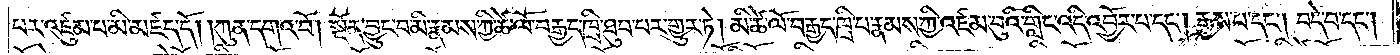པར་འཇུམ་པ་མི་མཛད་དོ། །ཀུན་དགའ་བོ། སྔོན་བྱུང་བ་མི་རྣམས་ཀྱི་ཚེ་ལོ་བརྒྱད་ཁྲི་ཐུབ་པར་གྱུར་ཏེ། མི་ཚེ་ལོ་བརྒྱད་ཁྲི་པ་རྣམས་ཀྱི་འཛམ་བུའི་གླིང་འདི་འབྱོར་པ་དང༌། རྒྱས་པ་དང༌། བདེ་བ་དང༌།
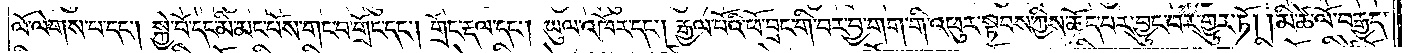ལོ་ལེགས་པ་དང༌། སྐྱེ་བོ་དང་མི་མང་པོས་གང་བ་གྲོང་དང༌། གྲོང་རྡལ་དང༌། ཡུལ་འཁོར་དང༌། རྒྱལ་པོའི་ཕོ་བྲང་གི་བར་བྱ་གག་གི་འཕུར་སྟབས་ཀྱིས་ཆོད་པར་བྱུང་བར་གྱུར་ཏོ། །མི་ཚེ་ལོ་བརྒྱད་
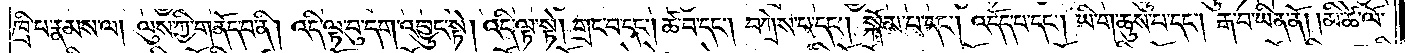ཁྲི་པ་རྣམས་ལ། ལུས་ཀྱི་གནོད་པ་ནི། འདི་ལྟ་བུ་དག་འབྱུང་སྟེ། འདི་ལྟ་སྟེ། གྲང་བ་དང༌། ཚ་བ་དང༌། བཀྲེས་པ་དང༌། སྐོམ་པ་དང༌། འདོད་པ་དང༌། ཡི་ག་ཆུས་པ་དང༌། རྒ་བ་ཡིན་ནོ། །མི་ཚེ་ལོ་
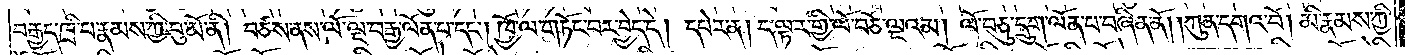བརྒྱད་ཁྲི་པ་རྣམས་ཀྱི་བུ་མོ་ནི། བཙས་ནས་ལོ་ལྔ་བརྒྱ་ལོན་པ་དང༌། ཁྱོ་ལ་གཏོང་བར་བྱེད་དེ། དཔེར་ན། ད་ལྟར་གྱི་ལོ་བཅོ་ལྔའམ། ལོ་བཅུ་དྲུག་ལོན་པ་བཞིན་ནོ། །ཀུན་དགའ་བོ། །མི་རྣམས་ཀྱི་
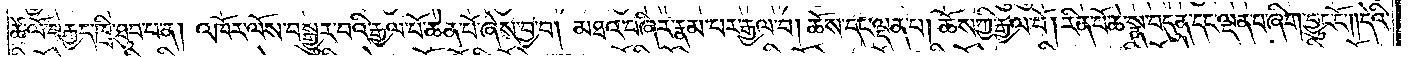ཚེ་ལོ་བརྒྱད་ཁྲི་ཐུབ་པ་ན། འཁོར་ལོས་བསྒྱུར་བའི་རྒྱལ་པོ་ཆེན་པོ་ཞེས་བྱ་བ། མཐའ་བཞིར་རྣམ་པར་རྒྱལ་བ། ཆོས་དང་ལྡན་པ། ཆོས་ཀྱི་རྒྱལ་པོ། རིན་པོ་ཆེ་སྣ་བདུན་དང་ལྡན་པ་ཞིག་བྱུང་ངོ༌། །དེའི་
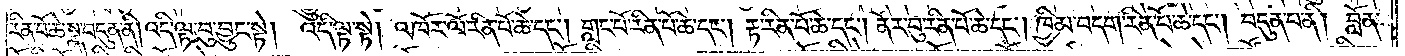རིན་པོ་ཆེ་སྣ་བདུན་ནི། འདི་ལྟ་བུ་བྱུང་སྟེ། འདི་ལྟ་སྟེ། འཁོར་ལོ་རིན་པོ་ཆེ་དང༌། གླང་པོ་རིན་པོ་ཆེ་དང༌། རྟ་རིན་པོ་ཆེ་དང༌། ནོར་བུ་རིན་པོ་ཆེ་དང༌། ཁྱིམ་བདག་རིན་པོ་ཆེ་དང༌། བདུན་པ་ནི། བློན་
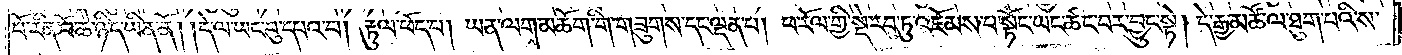པོ་རིན་པོ་ཆེ་ཉིད་ཡིན་ནོ། །དེ་ལ་ཡང་བུ་དཔའ་བ། རྟུལ་ཕོད་པ། ཡན་ལག་མཆོག་གི་གཟུགས་དང་ལྡན་པ། ཕ་རོལ་གྱི་སྡེ་རབ་ཏུ་འཇོམས་པ་སྟོང་ཡང་ཚང་བར་བྱུང་སྟེ། དེ་རྒྱ་མཚོ་ལ་ཐུག་པའི་ས་
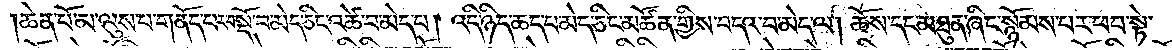ཆེན་པོ་མ་ལུས་པ་གནོད་པར་བསྡོ་བ་མེད་ཅིང་འཚེ་བ་མེད་པ། འདི་ཉིད་ཆད་པ་མེད་ཅིང་མཚོན་གྱིས་བདའ་བ་མེད་ལ། ཆོས་དང་མཐུན་ཞིང་སྙོམས་པར་ཕབ་སྟེ་
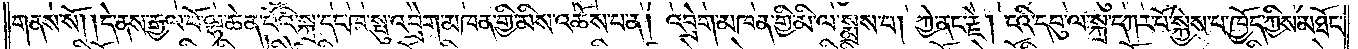གནས་སོ། །དེ་ནས་རྒྱལ་པོ་ལྷ་ཆེན་པོའི་སྐྲ་དང་ཁ་སྤུ་འབྲེག་མཁན་གྱི་མིས་འཆོས་པ་ན། འབྲེག་མཁན་གྱི་མི་ལ་སྨྲས་པ། ཀྱེ་ནང་རྗེ། ངའི་དབུ་ལ་སྐྲ་དཀར་པོ་སྐྱེས་པ་ཁྱོད་ཀྱིས་མཐོང་
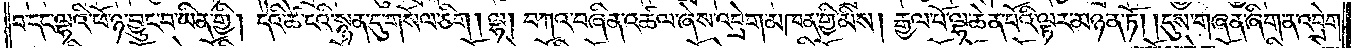བ་དང་ལྷའི་ཕོ་ཉ་བྱུང་བ་ཡིན་གྱི། དེའི་ཚེ་ངའི་སྙན་དུ་གསོལ་ཅིག། ལྷ། བཀའ་བཞིན་འཚལ་ཞེས་འབྲེག་མཁན་གྱི་མིས། རྒྱལ་པོ་ལྷ་ཆེན་པོའི་ལྟར་མཉན་ཏོ། །དུས་གཞན་ཞིག་ན་འབྲེག་
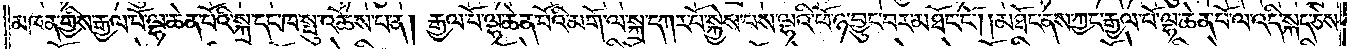མཁན་གྱིས་རྒྱལ་པོ་ལྷ་ཆེན་པོའི་སྐྲ་དང་ཁ་སྤུ་འཆོས་པ་ན། རྒྱལ་པོ་ལྷ་ཆེན་པོའི་མགོ་ལ་སྐྲ་དཀར་པོ་སྐྱེས་པས་ལྷའི་ཕོ་ཉ་བྱུང་བར་མཐོང་ངོ༌། །མཐོང་ནས་ཀྱང་རྒྱལ་པོ་ལྷ་ཆེན་པོ་ལ་འདི་སྐད་ཅེས་
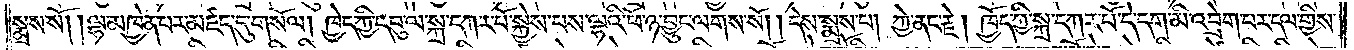སྨྲས་སོ། །ལྷ་མཁྱེན་པར་མཛད་དུ་གསོལ། ཁྱེད་ཀྱི་དབུ་ལ་སྐྲ་དཀར་པོ་སྐྱེས་པས་ལྷའི་ཕོ་ཉ་བྱུང་ལགས་སོ། །དེས་སྨྲས་པ། ཀྱེ་ནང་རྗེ། ཁྱོད་ཀྱི་སྐྲ་དཀར་པོ་དེ་དག་མི་འབྲེག་པར་དལ་གྱིས་
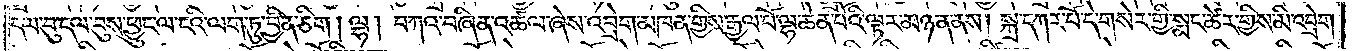དལ་བུ་དལ་བུས་ཕྱུང་ལ་ངའི་ལག་ཏུ་བྱིན་ཅིག། ལྷ། བཀའ་བཞིན་འཚལ་ཞེས་འབྲེག་མཁན་གྱིས་རྒྱལ་པོ་ལྷ་ཆེན་པོའི་ལྟར་མཉན་ནས། སྐྲ་དཀར་པོ་དེ་གསེར་གྱི་སྨང་ཚེར་གྱིས་མི་འབྲེག་
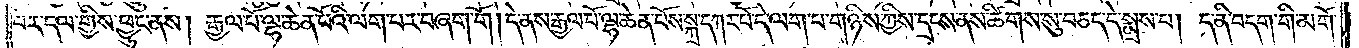པར་དལ་གྱིས་ཕྱུང་ནས། རྒྱལ་པོ་ལྷ་ཆེན་པོའི་ལག་པར་བཞག་གོ །དེ་ནས་རྒྱལ་པོ་ལྷ་ཆེན་པོས་སྐྲ་དཀར་པོ་དེ་ལག་པ་གཉིས་ཀྱིས་དྲངས་ནས་ཚིགས་སུ་བཅད་དེ་སྨྲས་པ། ད་ནི་བདག་གི་མགོ་
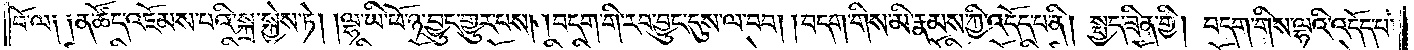བོ་ལ༑ ༑ན་ཚོད་འཇོམས་པའི་སྐྲ་སྐྱེས་ཏེ། །ལྷ་ཡི་ཕོ་ཉ་བྱུང་གྱུར་པས། །བདག་གི་རབ་བྱུང་དུས་ལ་བབ། །བདག་གིས་མི་རྣམས་ཀྱི་འདོད་པ་ནི། སྤྱད་ཟིན་གྱི། བདག་གིས་ལྷའི་འདོད་པ་
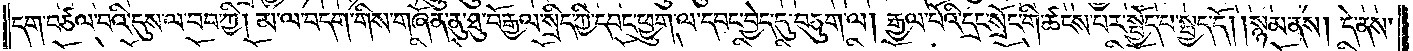དག་བཙལ་བའི་དུས་ལ་བབ་ཀྱི། མ་ལ་བདག་གིས་གཞོན་ནུ་ཐུ་བོ་རྒྱལ་སྲིད་ཀྱི་དབང་ཕྱུག་ལ་དབང་བྱེད་དུ་བཅུག་ལ། རྒྱལ་པོའི་དྲང་སྲོང་གི་ཚངས་པར་སྤྱོད་པ་སྤྱད་དོ། །སྙམ་ནས། དེ་ནས་
